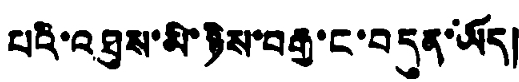པའི་འཐུས་མི་ཉིས་བརྒྱ་ང་བདུན་ཡོད།
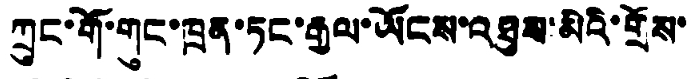ཀྲུང་གོ་གུང་ཁྲན་ཏང་རྒྱལ་ཡོངས་འཐུས་མིའི་གྲོས་
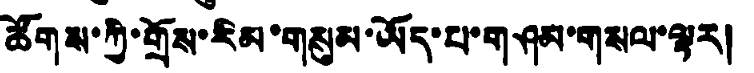ཚོགས་ཀྱི་གྲོས་རིམ་གསུམ་ཡོད་པ་གཤམ་གསལ་ལྟར།
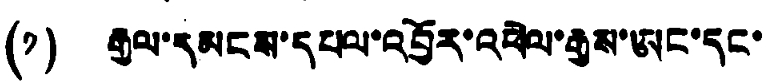(༡) རྒྱལ་དམངས་དཔལ་འབྱོར་འཕེལ་རྒྱས་ཨང་དང་
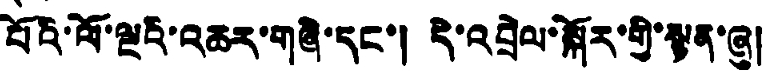པོའི་ལོ་ལྔའི་འཆར་གཞི་དང་། དེ་འབྲེལ་སྐོར་གྱི་སྙན་ཞུ།
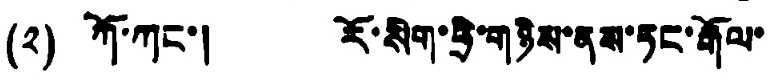(༢) ཀོ་ཀང་། རོ་སིག་ཧྲི་གཉིས་ནས་ཏང་རྒོལ་
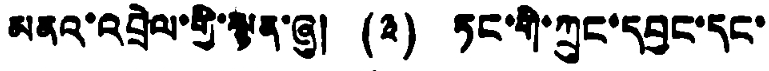མནའ་འབྲེལ་གྱི་སྙན་ཞུ། (༣) ཏང་གི་ཀྲུང་དབྱང་དང་
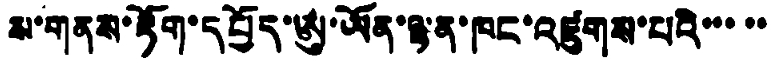ས་གནས་རྟོག་དཔྱོད་ཨུ་ཡོན་ལྷན་ཁང་འཛུགས་པའི་་་་་
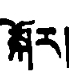སྐོར།
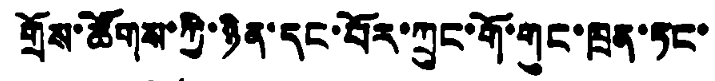གྲོས་ཚོགས་ཀྱི་ཉིན་དང་པོར་ཀྲུང་གོ་གུང་ཁྲན་ཏང་
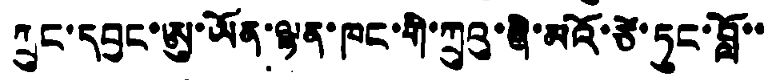ཀྲུང་དབྱང་ཨུ་ཡོན་ལྷན་ཁང་གི་ཀྲུའུ་ཞི་མའོ་ཙེ་ཏུང་བློ་་
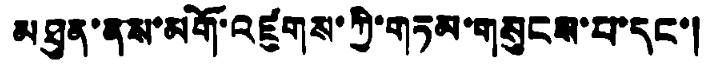མཐུན་ནས་མགོ་འཛུགས་ཀྱི་གཏམ་གསུངས་པ་དང་།
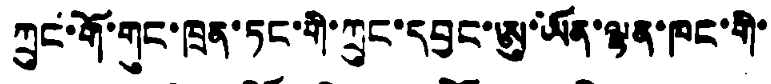ཀྲུང་གོ་གུང་ཁྲན་ཏང་གི་ཀྲུང་དབྱང་ཨུ་ཡོན་ལྷན་ཁང་གི་
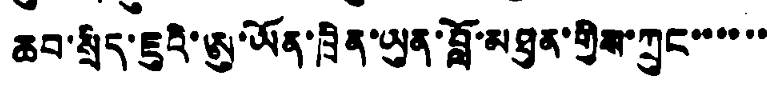ཆབ་སྲིད་ཇུའི་ཨུ་ཡོན་ཁྲིན་ཡུན་བློ་མཐུན་གྱིས་ཀྲུང་་་་་་
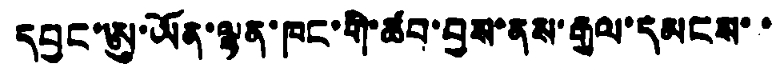དབྱང་ཨུ་ཡོན་ལྷན་ཁང་གི་ཚབ་བྱས་ནས་རྒྱལ་དམངས་་
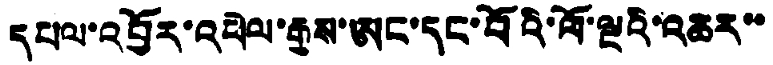དཔལ་འབྱོར་འཕེལ་རྒྱས་ཨང་དང་པོའི་ལོ་ལྔའི་འཆར་་
